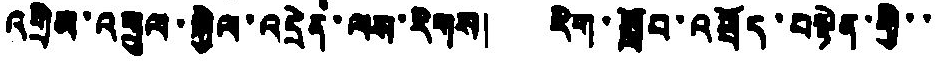འགྲིམ་འགྲུལ་སྐྱེལ་འདྲེན་ལས་རིགས། རིག་སློབ་འཕྲོད་བསྟེན་གྱི་་
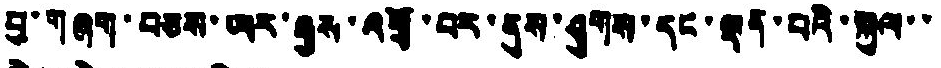བྱ་གཞག་བཅས་ཡར་རྒྱས་འགྲོ་བར་ནུས་ཤུགས་དང་ལྡན་པའི་སྐུལ་་
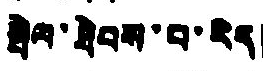སྤེལ་ཐེབས་བ་རེད།
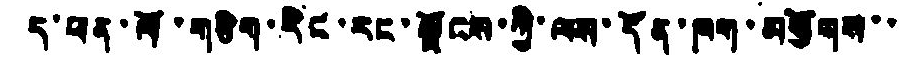ད་ཕན་ཁོ་གཅིག་རིང་རང་ལྗོངས་ཀྱི་ལས་དོན་ཁག་མགྱོགས་་
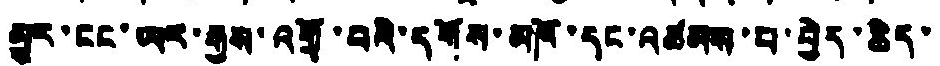མྱུར་ངང་ཡར་རྒྱས་འགྲོ་བའི་དགོས་མཁོ་དང་འཚམས་པ་བྱེད་ཆེད་
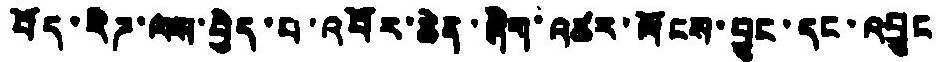བོད་རིཌ་ལས་བྱེད་པ་འབོར་ཆེན་ཞིག་འཚར་ལོངས་བྱུང་དང་འབྲུང
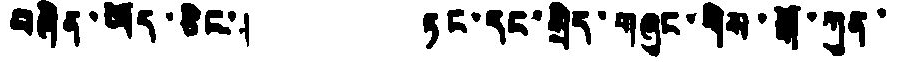བཞིན་མོད་ཅིང་། ཏང་དང་སྲིད་གཞུང་གིས་སྒོ་ཀུན་
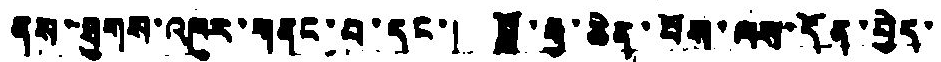ནས་ཐུགས་འཁུར་གནང་བ་དང་། བློ་རྒྱ་ཆེན་པོས་ལས་དོན་བྱེད་
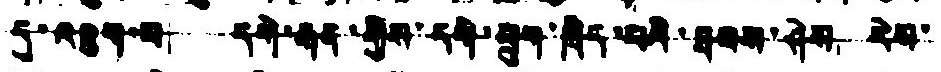དུ་འཇུག་པ། དགེ་རྒན་གྱིས་དགེ་ཕྲུག་ཁྲིད་པའི་ཐགས་ཤེས རེས་
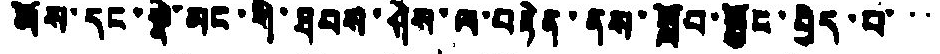མོས་དང་སྣེ་མང་གི་ཐབས་ཤེས་ལ་བརྟེན་ནས་སློབ་སྦྱོང་བྱེད་པ་་་
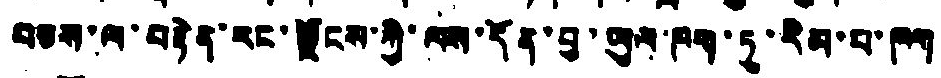བཅས་ལ་བརྟེན་རང་ལྗོངས་ཀྱི་ལས་དོན་བྱ་ཡུལ་ཁག་ཏུ་རིམ་པ་ཁག
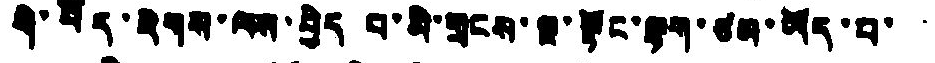གི་བོད་རིགས་ལས་བྱེད པ་མི་གྲངས་སྔ་སྟོང་ལྷག་ཙམ་ཡོད་པ་་་
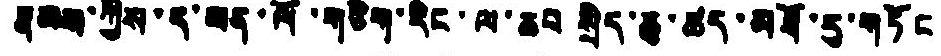རྣམས་ཀྱིས་ད་ཕན་ལོ་གཅིག་རིང་ལ་ཆབ སྲིད་ཆུ་ཚད་མཐོ་རུ་གཏོང
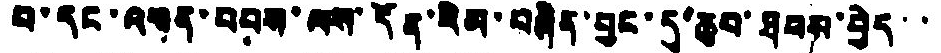བ་དང་འགན་བབས་ལས་དོན་རིམ་བཞིན་བྱང་དུ་ཆུབ་ཐབས་བྱེད་་
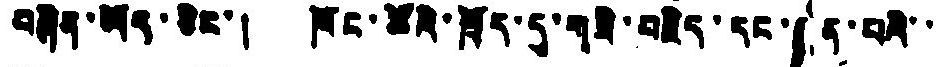བཞིན་ཡོད་ཅིང་། ཁོང་ཚོའི་ཁྲོད་དུ་གཟི་བརྗིད་དང་ལྡན་པའི་་
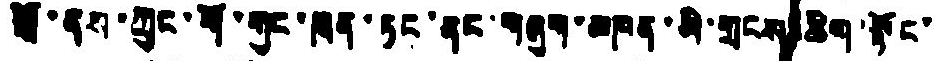སྒོ་ནས་ཀྲུང་གོ་ཀུང་ཁྲན་ཏང་ནང་གཞུག་མཁན་མི་གྲངས་ཆིག་སྟོང་
